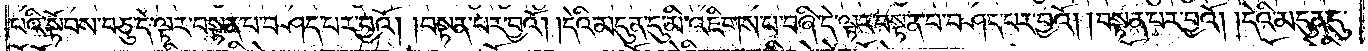པའི་སྟོབས་བཅུ་དེ་ལྟར་བསྟན་པ་བཤད་པར་བྱའོ། །བསྟན་པར་བྱའོ། །དེའི་མདུན་དུ་མི་འཇིགས་པ་བཞི་དེ་ལྟར་བསྟན་པ་བཤད་པར་བྱའོ། །བསྟན་པར་བྱའོ། །དེའི་མདུན་དུ་
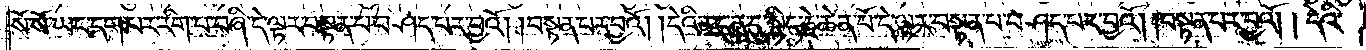སོ་སོ་ཡང་དག་པར་རིག་པ་བཞི་དེ་ལྟར་བསྟན་པ་བཤད་པར་བྱའོ། །བསྟན་པར་བྱའོ། །དེའི་མདུན་དུ་སྙིང་རྗེ་ཆེན་པོ་དེ་ལྟར་བསྟན་པ་བཤད་པར་བྱའོ། །བསྟན་པར་བྱའོ། །དེའི་
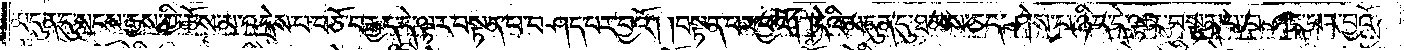མདུན་དུ་སངས་རྒྱས་ཀྱི་ཆོས་མ་འདྲེས་པ་བཅོ་བརྒྱད་དེ་ལྟར་བསྟན་པ་བཤད་པར་བྱའོ། །བསྟན་པར་བྱའོ། །དེའི་མདུན་དུ་ཐམས་ཅད་ཤེས་པ་ཉིད་དེ་ལྟར་བསྟན་པ་བཤད་པར་བྱའོ། །
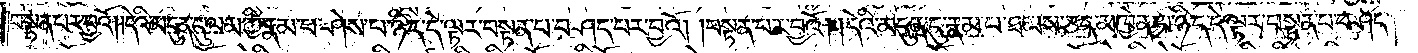བསྟན་པར་བྱའོ། །དེའི་མདུན་དུ་ལམ་གྱི་རྣམ་པ་ཤེས་པ་ཉིད་དེ་ལྟར་བསྟན་པ་བཤད་པར་བྱའོ། །བསྟན་པར་བྱའོ། །དེའི་མདུན་དུ་རྣམ་པ་ཐམས་ཅད་མཁྱེན་པ་ཉིད་དེ་ལྟར་བསྟན་པ་བཤད་
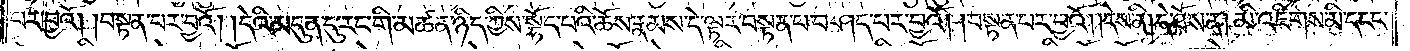པར་བྱའོ། །བསྟན་པར་བྱའོ། །དེའི་མདུན་དུ་རང་གི་མཚན་ཉིད་ཀྱིས་སྟོང་པའི་ཆོས་རྣམས་དེ་ལྟར་བསྟན་པ་བཤད་པར་བྱའོ། །བསྟན་པར་བྱའོ། །དེས་ནི། དེ་ཐོས་ན། མི་འཇིགས་མི་དངང་
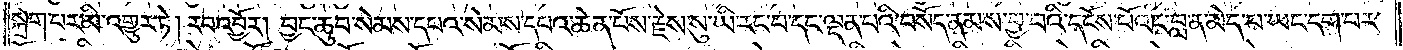སྐྲག་པར་མི་འགྱུར་ཏེ། རབ་འབྱོར། བྱང་ཆུབ་སེམས་དཔའ་སེམས་དཔའ་ཆེན་པོས་རྗེས་སུ་ཡི་རང་བ་དང་ལྡན་པའི་བསོད་ནམས་བྱ་བའི་དངོས་པོའང་བླ་ན་མེད་པ་ཡང་དག་པར་
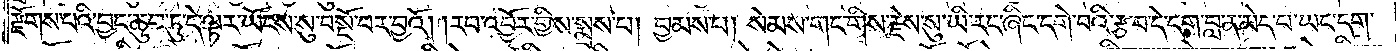རྫོགས་པའི་བྱང་ཆུབ་ཏུ་དེ་ལྟར་ཡོངས་སུ་བསྔོ་བར་བྱའོ། །རབ་འབྱོར་གྱིས་སྨྲས་པ། བྱམས་པ། སེམས་གང་གིས་རྗེས་སུ་ཡི་རང་ཞིང་དགེ་བའི་རྩ་བ་དེ་དག་བླ་ན་མེད་པ་ཡང་དག་
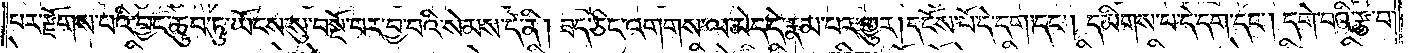པར་རྫོགས་པའི་བྱང་ཆུབ་ཡོངས་སུ་བསྔོ་བར་བྱ་བའི་སེམས་དེ་ནི། ཟད་ཅིང་འགགས་ལ་མེད་དེ་རྣམ་པར་གྱུར། དངོས་པོ་དེ་དག་དང༌། དམིགས་པ་དེ་དག་དང༌། དགེ་བའི་རྩ་བ་
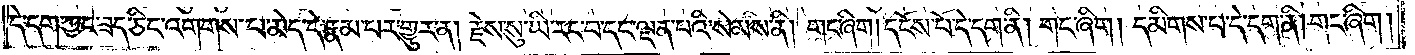དེ་དག་ཀྱང་ཟད་ཅིང་འགགས་ལ་མེད་དེ་རྣམ་པར་གྱུར་ན། རྗེས་སུ་ཡི་རང་བ་དང་ལྡན་པའི་སེམས་ནི། གང་ཞིག །དངོས་པོ་དེ་དག་ནི། གང་ཞིག །དམིགས་པ་དེ་དག་ནི། གང་ཞིག །
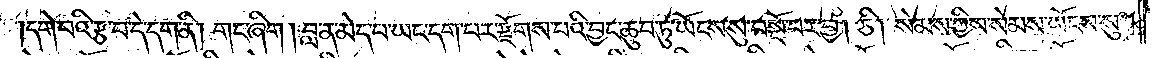དགེ་བའི་རྩ་བ་དེ་དག་ནི། གང་ཞིག །བླ་ན་མེད་པ་ཡང་དག་པར་རྫོགས་པའི་བྱང་ཆུབ་ཏུ་ཡོངས་སུ་བསྔོ་བར་བྱ། ཅི། སེམས་ཀྱིས་སེམས་ཡོངས་སུ་
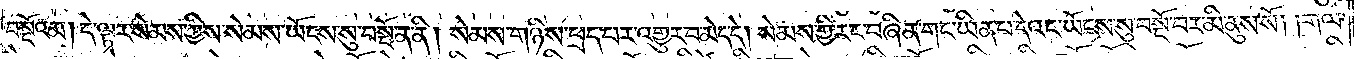བསྔོའམ། དེ་ལྟར་སེམས་ཀྱིས་སེམས་ཡོངས་སུ་བསྔོ་ན་ནི། སེམས་གཉིས་ཕྲད་བར་འགྱུར་བ་མེད་དེ། སེམས་ཀྱི་རང་བཞིན་གང་ཡིན་པ་དེའང་ཡོངས་སུ་བསྔོ་བར་མི་ནུས་སོ། །གལ་
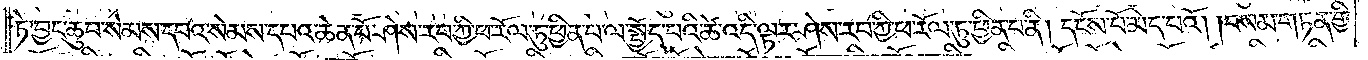ཏེ་བྱང་ཆུབ་སེམས་དཔའ་སེམས་དཔའ་ཆེན་པོ་ཤེས་རབ་ཀྱི་ཕ་རོལ་ཏུ་ཕྱིན་པ་ལ་སྤྱོད་པའི་ཚེ་འདི་ལྟར་ཤེས་རབ་ཀྱི་ཕ་རོལ་ཏུ་ཕྱིན་པ་ནི། དངོས་པོ་མེད་པའོ། །བསམ་གཏན་གྱི་
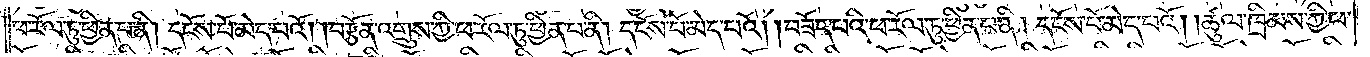ཕ་རོལ་ཏུ་ཕྱིན་པ་ནི། དངོས་པོ་མེད་པའོ། །བརྩོན་འགྲུས་ཀྱི་ཕ་རོལ་ཏུ་ཕྱིན་པ་ནི། དངོས་པོ་མེད་པའོ། །བཟོད་པའི་ཕ་རོལ་ཏུ་ཕྱིན་པ་ནི། དངོས་པོ་མེད་པའོ། །ཚུལ་ཁྲིམས་ཀྱི་ཕ་
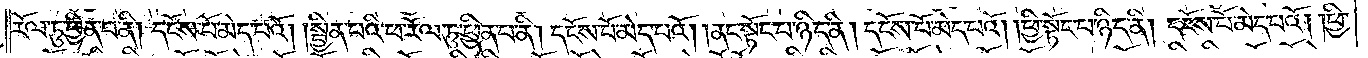རོལ་ཏུ་ཕྱིན་པ་ནི། དངོས་པོ་མེད་པའོ། །སྦྱིན་པའི་ཕ་རོལ་ཏུ་ཕྱིན་པ་ནི། དངོས་པོ་མེད་པའོ། །ནང་སྟོང་པ་ཉིད་ནི། དངོས་པོ་མེད་པའོ། །ཕྱི་སྟོང་པ་ཉིད་ནི། དངོས་པོ་མེད་པའོ། །ཕྱི་
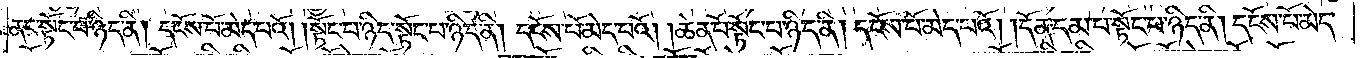ནང་སྟོང་པ་ཉིད་ནི། དངོས་པོ་མེད་པའོ། །སྟོང་པ་ཉིད་སྟོང་པ་ཉིད་ནི། དངོས་པོ་མེད་པའོ། །ཆེན་པོ་སྟོང་པ་ཉིད་ནི། དངོས་པོ་མེད་པའོ། །དོན་དམ་པ་སྟོང་པ་ཉིད་ནི། དངོས་པོ་མེད་
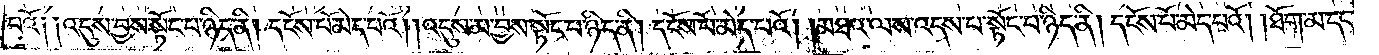པའོ༑ ༑འདུས་བྱས་སྟོང་པ་ཉིད་ནི། དངོས་པོ་མེད་པའོ། །འདུས་མ་བྱས་སྟོང་པ་ཉིད་ནི། དངོས་པོ་མེད་པའོ། །མཐའ་ལས་འདས་པ་སྟོང་པ་ཉིད་ནི། དངོས་པོ་མེད་པའོ། །ཐོག་མ་དང་
